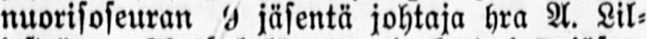nuorisoseuran 9 jäsentä johtaja hra A. Lil-
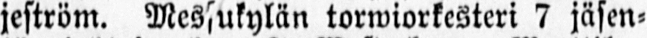jeström. Messukylän torwiorkesteri 7 jäsen-
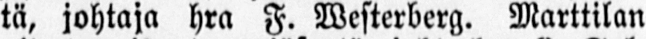tä, johtaja hra F. Westerberg. Marttilan
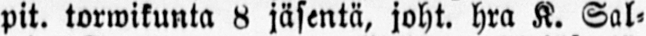pit. torwikunta 8 jäsentä, joht. hra K. Sal-
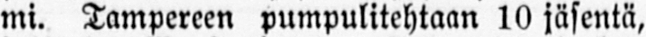mi. Tampereen pumpulitehtaan 10 jäsentä,
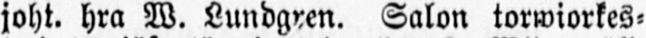joht. hra W. Lundgren. Salon torwiorkes-
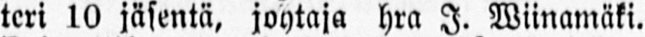teri 10 jäsentä, johtaja hra I. Wiinamäki.
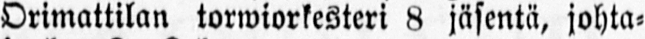Orimattilan torwiorkesteri 8 jäsentä, johta-
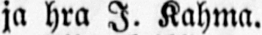ja hra I. Kahma.
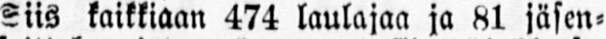Siis kaikkiaan 474 laulajaa ja 81 jäsen-
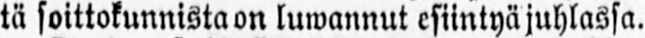tä soittokunnistaan luwannut esiintyä juhlassa.
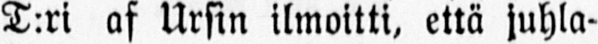T:ri af Ursin ilmoitti, että juhla-
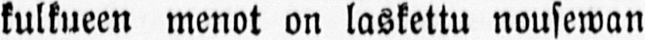kulkueen menot on laskettu nousewan
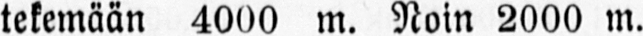tekemään 4000 m. Noin 2000 m.
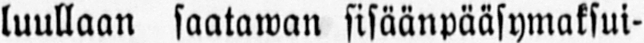luullaan saatawan sisäänpääsymaksui-
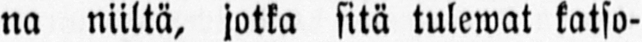na niiltä, jotka sitä tulewat katso-
